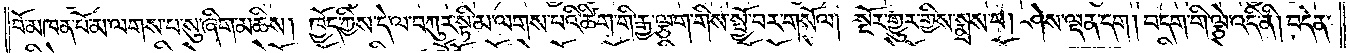བོ་མཁན་པོ་མ་ལགས་པ་སུ་ཞིག་མཆིས། ཁྱོད་ཀྱིས་དེ་ལ་བཀུར་སྟི་མ་ལགས་པའི་ཚིག་གི་རྒྱ་ལྕག་གིས་སྤྱོ་བར་གསོལ། སྔོར་གྱུར་གྱིས་སྨྲས་པ། ཤེས་ལྡན་དག །བདག་གི་ལྕེ་འདི་ནི། བདེན་
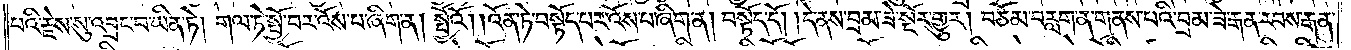པའི་རྗེས་སུ་འབྲང་བ་ཡིན་ཏེ། གལ་ཏེ་སྤྱོ་བར་འོས་པ་ཞིག་ན། སྤྱོའོ། །འོན་ཏེ་བསྟོད་པར་འོས་པ་ཞིག་ན། བསྟོད་དོ། །དེ་ནས་བྲམ་ཟེ་སྔོར་གྱུར། བཅོམ་བརླག་ན་གནས་པའི་བྲམ་ཟེ་རྒན་རབས་རྒན་
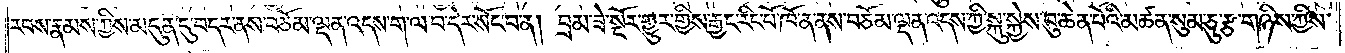རབས་རྣམས་ཀྱིས་མདུན་དུ་བདར་ནས་བཅོམ་ལྡན་འདས་ག་ལ་བ་དེར་སོང་བ་ན། བྲམ་ཟེ་སྔོར་གྱུར་གྱིས་རྒྱང་རིང་པོ་ཁོ་ན་ནས་བཅོམ་ལྡན་འདས་ཀྱི་སྐུ་སྐྱེས་བུ་ཆེན་པོའི་མཚན་སུམ་ཅུ་རྩ་གཉིས་ཀྱིས་
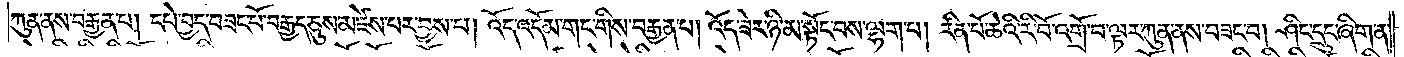ཀུན་ནས་བརྒྱན་པ། དཔེ་བྱད་བཟང་པོ་བརྒྱད་ཅུས་མཛེས་པར་བྱས་པ། འོད་འདོམ་གང་གིས་བརྒྱན་པ། འོད་ཟེར་ཉི་མ་སྟོང་བས་ལྷག་པ། རིན་པོ་ཆེའི་རི་བོ་འགྲོ་བ་ལྟར་ཀུན་ནས་བཟང་བ། ཤིང་དྲུང་ཞིག་ན་
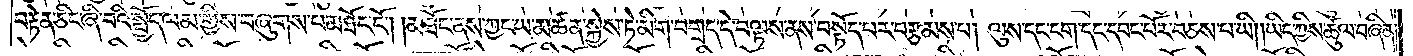བརྟེན་ཅིང་ཞི་བའི་སྤྱོད་ལམ་གྱིས་བཞུགས་པ་མཐོང་ངོ༌། །མཐོང་ནས་ཀྱང་ཡ་མཚན་སྐྱེས་ཏེ་མིག་བགྲད་དེ་བལྟས་ནས་བསྟོད་པར་བརྩམས་པ། ལུས་དང་ངག་དང་དབང་པོར་བཅས་པ་ཡི། །ཡིད་ཀྱིས་ཚུལ་བཞིན་
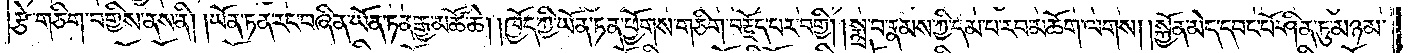རྩེ་གཅིག་བགྱིས་ནས་ནི། ཡོན་ཏན་རང་བཞིན་ཡོན་ཏན་རྒྱ་མཚོ་ཆེ། །ཁྱོད་ཀྱི་ཡོན་ཏན་ཕྱོགས་གཅིག་བརྗོད་པར་བགྱི། །སྨྲ་བ་རྣམས་ཀྱི་དམ་པ་རབ་མཆོག་ལགས། །སྐྱོན་མེད་དབང་པོ་ཤིན་ཏུ་མཉམ་
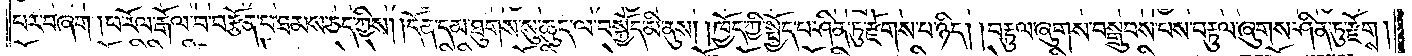པར་བཞག །ཕ་རོལ་རྒོལ་བ་བརྩོན་པ་ཐམས་ཅད་ཀྱིས། །དོན་དམ་ཐུགས་སུ་ཆུད་ལ་བསྐྱོད་མི་ནུས། །ཁྱོད་ཀྱི་སྤྱོད་པ་ཤིན་ཏུ་རྫོགས་པ་ཉིད། བརྟུལ་ཞུགས་བསྒྲུབས་པས་བརྟུལ་ཞུགས་ཤིན་ཏུ་རྫོགས།
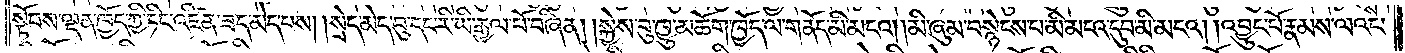སྟོབས་ལྡན་ཁྱོད་ཀྱི་ཏིང་འཛིན་ཟད་མེད་པས། །སྲེད་མེད་བུ་དང་རི་ཡི་རྒྱལ་པོ་བཞིན། །སྐྱེས་བུ་ཁྱུ་མཆོག་ཁྱོད་ལ་གནོད་མི་མངའ། །མི་ཞུམ་བསྙེངས་པ་མི་མངའ་དུབ་མི་མངའ། །འབྱུང་པོ་རྣམས་ལའང་
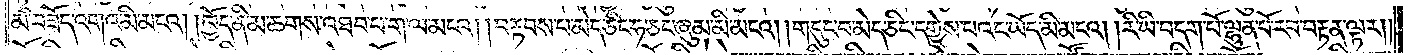མི་བཟོད་འགའ་མི་མངའ། །ཁྱོད་ནི་མ་ཆགས་འཐབ་པ་ག་ལ་མངའ། །བརྟབས་པ་མེད་ཅིང་ཧ་ཅང་ཞུམ་མི་མངའ། །གདུང་བ་མེད་ཅིང་དགྱེས་པའང་ཡོད་མི་མངའ། །རི་ཡི་བདག་པོ་ལྷུན་པོ་རབ་བརྟན་ལྟར། །
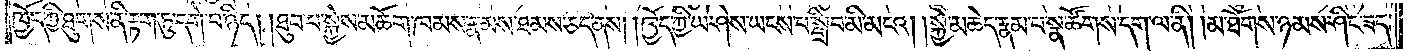ཁྱོད་ཀྱི་ཐུགས་ནི་རྟག་ཏུ་དགེ་བ་ཉིད། །ཐུབ་པ་སྐྱེས་མཆོག་ཁམས་རྣམས་ཐམས་ཅད་ནས། །ཁྱོད་ཀྱི་ཡེ་ཤེས་ཡངས་པ་སྒྲིབ་མི་མངའ། །སྐྱེ་མཆེད་རྣམ་པ་སྣ་ཚོགས་དག་ལ་ནི། །མ་ཐོགས་ཉམས་ཤིང་ཟད་
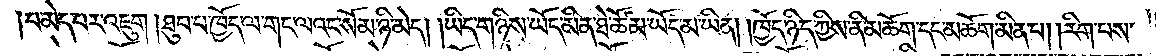།པ་མེད་པར་འཇུག །ཐུབ་པ་ཁྱོད་ལ་གང་ལའང་སོམ་ཉི་མེད། །ཡིད་གཉིས་ཡོད་མིན་ཐེ་ཚོམ་ཡོད་མ་ཡིན། །ཁྱོད་ཉིད་ཀྱིས་ནི་མཆོག་དང་མཆོག་མིན་པ། །རིག་པས་
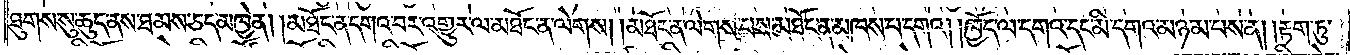ཐུགས་སུ་ཆུད་ནས་ཐམས་ཅད་མཁྱེན། །མཐོང་ན་དགའ་བར་འགྱུར་ལ་མཐོང་ན་ལེགས། །མཐོང་ན་ལེགས་པས་མཐོང་ན་མཁས་པ་དགའ། །ཁྱོད་ལ་དགའ་བ་དང་མི་དགའ་མཉམ་པས་ན། །རྟག་ཏུ་
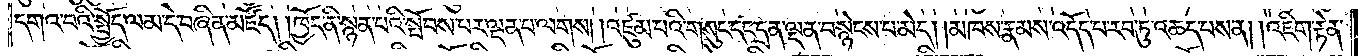དགའ་བའི་སྤྱོད་ལམ་དེ་བཞིན་མཛོད། །ཁྱོད་ནི་སྙན་པའི་སྤོབས་པར་ལྡན་པ་ལགས། །འཛུམ་པའི་གསུང་དང་དྲན་ལྡན་བསྙེངས་པ་མེད། །མཁས་རྣམས་འདོད་པ་རབ་ཏུ་འཆད་པས་ན། །འཇིག་རྟེན་
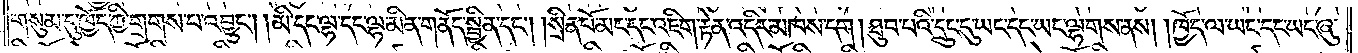གསུམ་དུ་ཁྱོད་ཀྱི་གྲགས་པ་འབྱུང༌། །མི་དང་ལྷ་དང་ལྷ་མིན་གནོད་སྦྱིན་དང༌། །སྲིན་པོ་མང་དང་འཇིག་རྟེན་འདིར་མཁས་དང༌། ཐུབ་པའི་དྲུང་དུ་ཡང་དང་ཡང་ལྷགས་ནས། །ཁྱོད་ལ་ཡང་དང་ཡང་ཞུ་
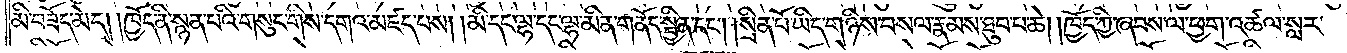མི་བཟོད་མེད། །ཁྱོད་ནི་སྙན་པའི་གསུང་གིས་དགའ་མཛད་པས། །མི་དང་ལྷ་དང་ལྷ་མིན་གནོད་སྦྱིན་དང༌། །སྲིན་པོ་ཡིད་གཉིས་བསལ་རྣམས་ཐུབ་པ་ཆེ། །ཁྱོད་ཀྱི་ཞབས་ལ་ཕྱག་འཚལ་སླར་
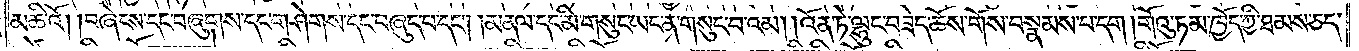མཆིའོ། །བཞེངས་དང་བཞུགས་དང་གཤེགས་དང་བཞུད་པ་དང༌། །མནལ་དང་མི་གསུང་ཡང་ན་གསུང་བ་འམ། །འོན་ཏེ་ལྷུང་བཟེད་ཆོས་གོས་བསྣམས་བ་དག །གོའུ་ཏ་མ་ཁྱོད་ཀྱི་ཐམས་ཅད་
